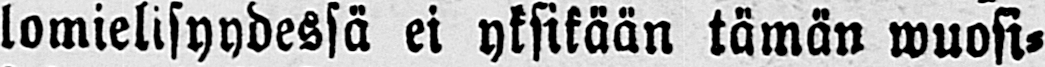lomielisyydessä ei yksikään tämän wuosi-
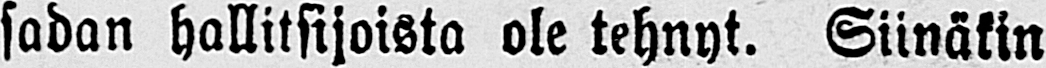sadan hallitsijoista ole tehnyt. Siinäkin
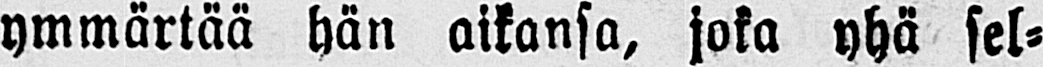ymmärtää hän aikansa, joka yhä sel-
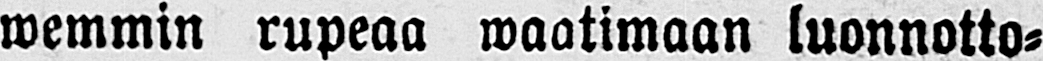wemmin rupeaa waatimaan luonnotto-
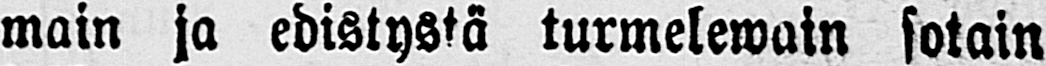main ja edistystä turmelewain sotain
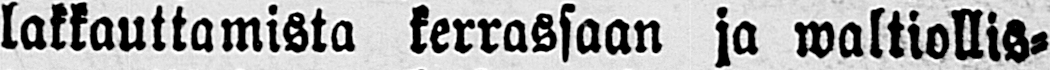lakkauttamista kerrassaan ja waltiollis-
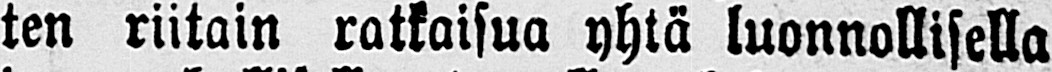ten riitain ratkaisua yhtä luonnollisella
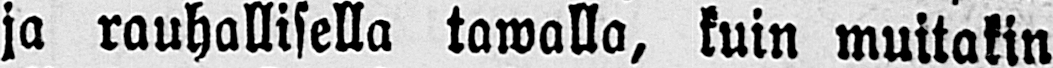ja rauhallisella tawalla, kuin muitakin
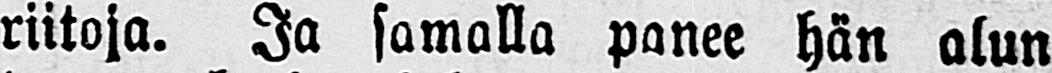riitoja. Ja samalla panee hän alun
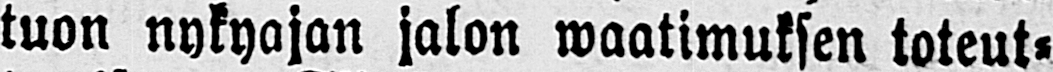tuon nykyajan jalon waatimuksen toteut-
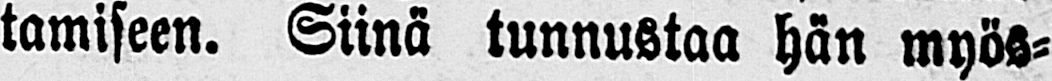tamiseen. Siinä tunnustaa hän myös-
